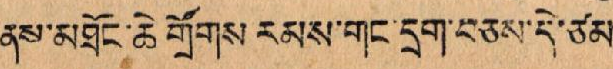ནས་མཐོང་ཆེ་གྲོགས རམས་གང་དྲག་བཅས་དེ་ཙམ་
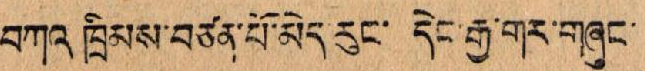བཀའ ཁྲིམས་བཙན་པོ་མེད་རུང་ དེང་རྒྱ་གར་གཞུང་
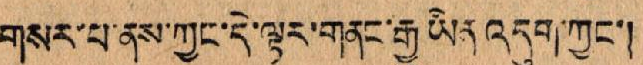གསར་པ་ནས་ཀྱང་དེ་ལྟར་གནང་རྒྱུ ཡིན་འདུག་ཀྱང་།
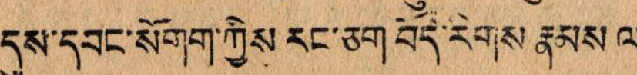དུས་དབང་སོགག་ཀྱིས རང་ཅག་བོད་རིགས རྣམས ལ་
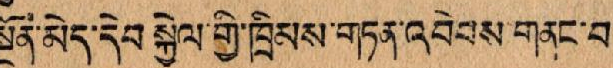སྔོན་མེད་དེབ་སྐྱེལ་གྱི་ཁྲིམས་གཏན་འབེབས་གནང་བ་
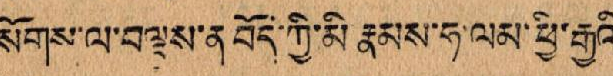སོགས་ལ་བལྟས་ན་བོད་ཀྱི་མི རྣམས་ཧ་ལམ་ཕྱི་རྒྱའི་
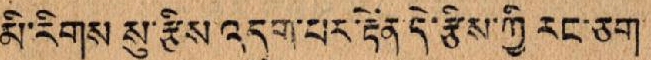མི་རིགས སུ་རྩིས འདུག་པར་རྟེན་དེ་རྩིས་ཀྱི རང་ཅག་
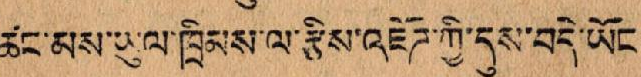ཚང་མས་ཡུལ་ཁྲིམས་ལ་རྩིས་འཇོཌ་ཀྱི་དུས་བདེ་ཡོང
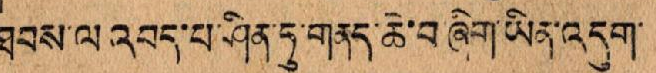ཐབས་ལ འབད་པ་ཤིན་ཏུ་གནད་ཆེ་བ་ཞིག་ཡིན་འདུག་
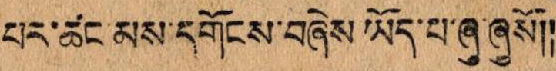པར་ཚང་མས་དགོངས་བཞེས ཡོད་པ་ཞུ་ཞུསོ།།
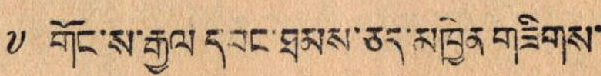༸ གོང་ས་རྒྱལ་དབང་ཐམས་ཅད་མཁྱེན་གཟིགས་
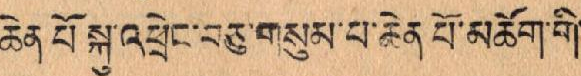ཆེན་པོ་སྐུ་འཕྲེང་བཅུ་གསུམ་པ་ཆེན་པོ་མཆོག་གི་
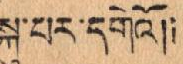སྐུ་པར་དགེའོ།།
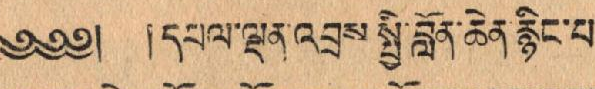༄༅༅། །དཔལ་ལྡན་འབྲས་སྤྱི་བློན་ཆེན་རྙིང་པ་
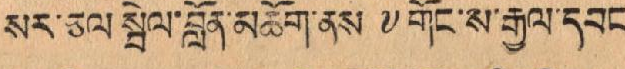སར་ཅལ་སྦེལ་བློན་མཆོག་ནས ༸ གོང་ས་རྒྱལ་དབང་
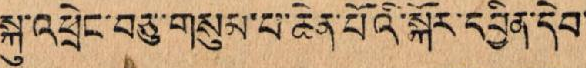སྐུ་འཕྲེང་བཅུ་གསུམ་པ་ཆེན་པོའི་སྐོར་དབྱིན་དེབ་
